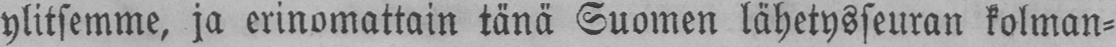ylitsemme, ja erinomattain tänä Suomen lähetysseuran kolman-
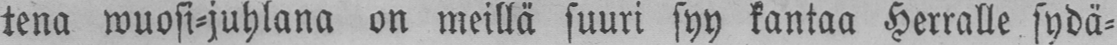tena wuosi-juhlana on meillä suuri syy kantaa Herralle sydä-
